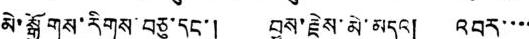མེ་སྒྱོགས་རིགས་བཅུ་དང་། བྱས་རྗེས་མེ་མདང། འབར་་་་
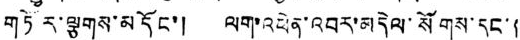གཏོར་ལྕགས་མདོང་། ལག་འཕེན་འབར་མདེལ་སོགས་དང་།
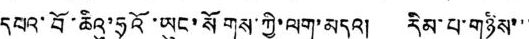དཔའ་བོ་ཆིའུ་ཧྲའོ་ཡུང་སོགས་ཀྱི་ལག་མདའ། རིམ་པ་གཉིས་་་
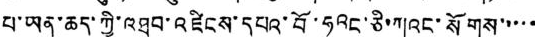པ་ཡན་ཆད་ཀྱི་འཐབ་འཛིངས་དཔའ་བོ་ཧུའང་ཅི་ཀུའང་སོགས་་་་་
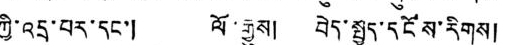ཀྱི་འདྲ་བར་དང་། ལོ་རྒྱུས། བེད་སྤྱད་དངོས་རིགས།
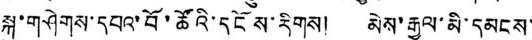སྐུ་གཤེགས་དཔའ་བོ་ཚོའི་དངོས་རིགས། མེས་རྒྱལ་མི་དམངས་
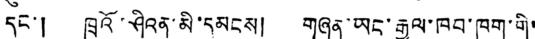དང་། ཁྲོའ་ཤིའན་མི་དམངས། གཞན་ཡང་རྒྱལ་ཁབ་ཁག་གི་
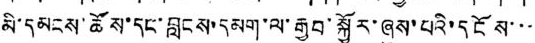མི་དམངས་ཚོས་དང་བླངས་དམག་ལ་རྒྱབ་སྒྱབ་སྐྱོར་ཞུས་པའི་དངོས་་་
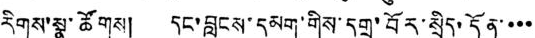རིགས་སྣ་ཚོགས། དང་བླངས་དམག་གིས་དགྲ་བོར་སྲིད་དོན་་་་
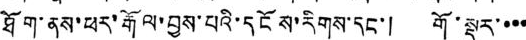ཐོག་ནས་ཕར་རྒོལ་བྱས་པའི་དངོས་རིགས་དང། གོ་སྡུར་་་་
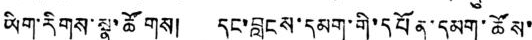ཡིག་རིགས་སྣ་ཚོགས། དང་བླངས་དམག་གི་དཔོན་དམག་ཚོས་
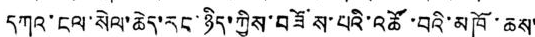དཀའ་ངལ་སེལ་ཆེད་རང་ཉིད་ཀྱིས་བཟོས་པའི་འཚོ་བའི་མཁོ་ཆས་
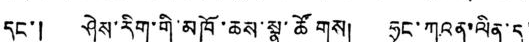དང་། ཤེས་རིག་གི་མཁོ་ཆས་སྣ་ཚོགས། ཧྲང་ཀའན་ལིན་དུ་
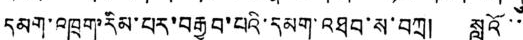དམག་འཁྲུག་རིམ་པར་བརྒྱབ་པའི་དམག་འཐབ་ས་བཀྲ། སླའོ་་་
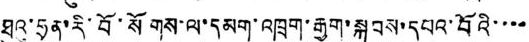ཐུའུ་ཧྲན་རི་བོ་སོགས་ལ་དམག་འཁྲུག་རྒྱག་སྐབས་དཔའ་བོའི་་་་
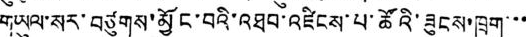གཡུལ་སར་བཙུགས་མྱོང་བའི་འཐབ་འཛིངས་པ་ཚོའི་ཟུངས་ཁྲག་་་
